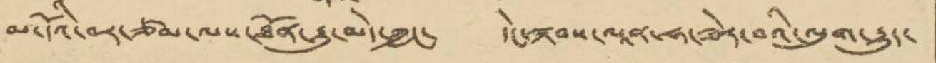མ་དོའི་བར་ཙམ་ལས་ཐོན་རྒྱུ་མེད་ཀྱང་ དེང་སྐབས་ལཱན་ཧ་ཟེར་བའི་ལུག་རྒྱུད་
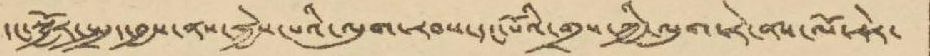དང་སྦྱོར་སྤྲད་བྱས་ནས་སྐྱེས་པའི་ལུག་རབས་དང་པོའི་གྲས་ཀྱི་ལུག་རེ་ནས་ལོ་རེར་
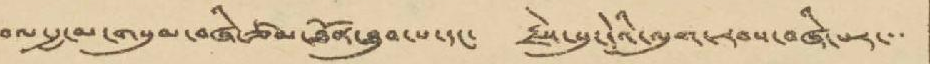བལ་རྒྱ་མ་གསུམ་བཞི་ཙམ་ཐོན་ཐུབ་པ་དང་ རྗེས་སུ་དེའི་ལུག་རབས་བཞི་པར་་་
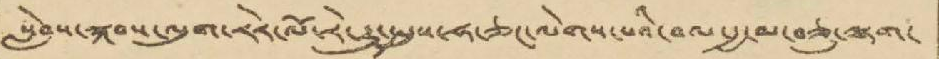སླེབས་སྐབས་ལུག་རེར་ལོ་རེ་རྒྱུ་སྤུས་ཧ་ཅང་ལེགས་པའི་བལ་རྒྱ་མ་བཅུ་ལྷག་
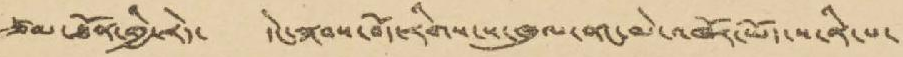ཙམ་ཐོན་གྱི་རེད་ དེང་སྐབས་བོད་རིགས་ས་ཁུལ་ནང་མེ་འཁོར་ཡོད་པ་ནི་པ་
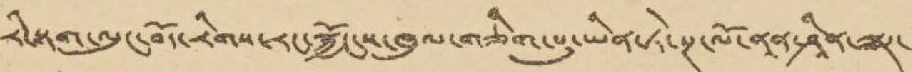རི་སྟག་ལུང་བོད་རིགས་རང་སྐྱོང་ས་ཁུལ་གཅིག་པུ་ཡིན་ཏེ་སྔ་ལོ་ནཱན་ཤཱིན་ལྕཊ་
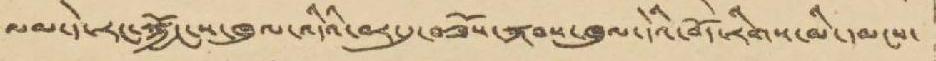ལམ་དེ་རང་སྐྱོང་ས་ཁུལ་འདིའི་བར་དུ་བཟོས་སྐབས་ཁུལ་དེའི་བོད་རིགས་མི་དམངས་
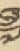༧
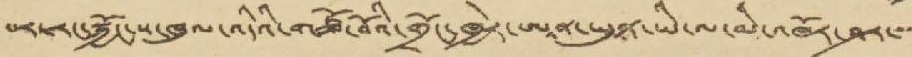པར་རང་སྐྱོང་ས་ཁུལ་འདིའི་གཙོ་བོའི་གྲོང་ཁྱེར་ཨཱན་ཡུནཱ་ཡི་ལ་མི་འཁོར་ཤར་་་
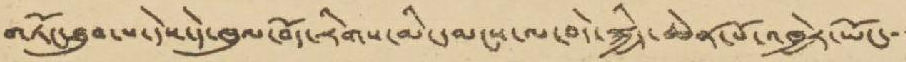གཏོང་ཐུབ་པ་དེས་དེ་ཁུལ་བོད་རིགས་མི་དམངས་ལ་བདེ་སྐྱིད་ཆེན་པོ་འཁྱེར་ཡོང་་་
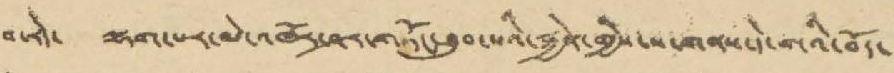བ་རེད་ ལྷག་པར་མེ་འཁོར་ཤར་གཏོང་ཐུབ་པའི་རྐྱེན་གྱིས་ས་གནས་དེ་གའི་བོད་
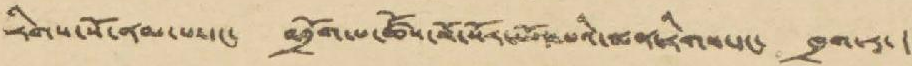རིགས་སོ་ནམ་པ་དང་ འབྲོག་པ་ཚོས་སོ་སོར་ཡོད་པའི་སྨན་རིགས་དང་ ཁྲག་རཱ་ །
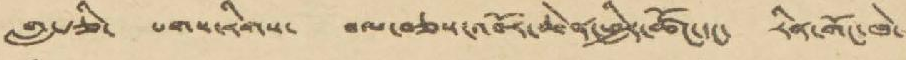གླ་རྩི་ པགས་རིགས་ བལ་བཅས་འབོར་ཆེན་ཕྱིར་ཚོང་དང་ རིན་གོང་ཁེ་
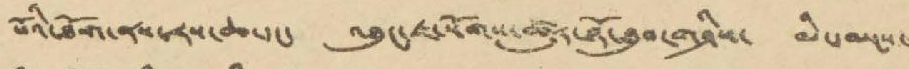པོའི་ཐོག་ནས་རས་ཆ་དང་ འཐུང་ཇ་སོགས་ཚུར་ཉོ་ཐུབ་གཤིས་ མི་དམངས་
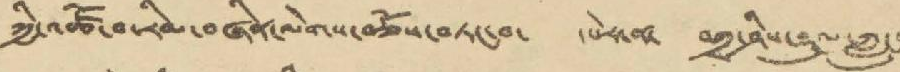ཀྱི་འཚོ་བ་རིམ་བཞིན་ལེགས་བཅོས་བཏང་བ་ དཔེར་ན་ བཀྲ་ཤིས་ཤུལ་ཀླུང་
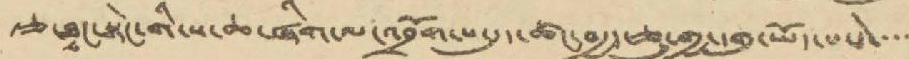རྩ་ཐྭང་སྟེང་གི་ས་ཆ་ཞིག་ལ་འབྲོག་པ་དུད་ཚང་བརྒྱད་ཅུ་གྱ་དགུ་ཡོད་པ་དེ་་་་
